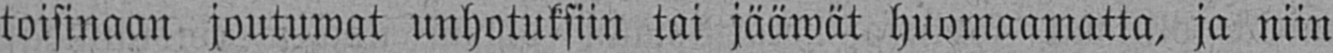toisinaan joutuwat unhotuksiin tai jääwät huomaamatta, ja niin
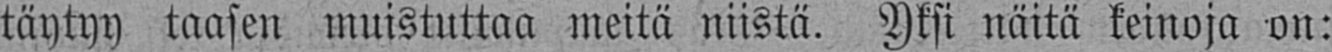täytyy taasen muistuttaa meitä niistä. Yksi näitä keinoja on:
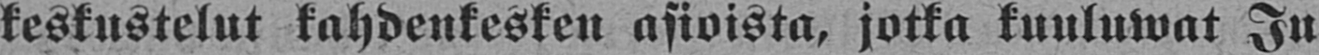keskustelut kahdenkesken asioista, jotka kuuluwat Ju-
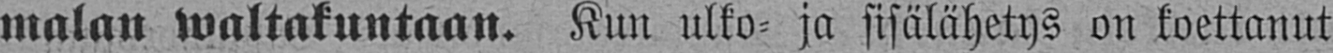malan waltakuntaan. Kun ulko- ja sisälähetys on koettanut
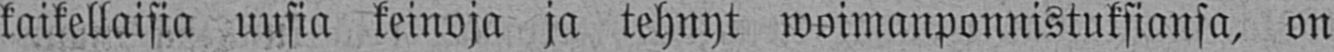kaikellaisia uusia keinoja ja tehnyt woimanponnisuksiansa, on
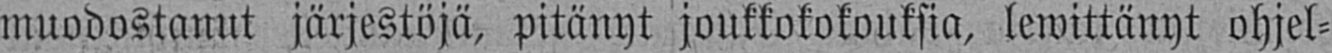muodostanut järjestöjä, pitänyt joukkokokouksia, lewittänyt ohjel-
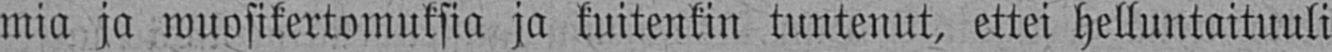mia ja wuosikertomuksia ja kuitenkin tuntenut, ettei helluntaituuli
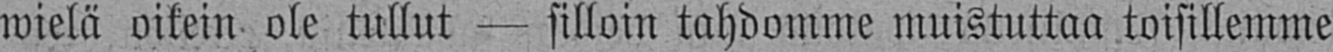wielä oikein ole tullut — silloin tahdomme muistuttaa toisillemme
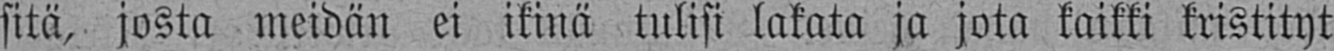sitä, josta meidän ei ikinä tulisi lakata ja jota kaikki kristityt
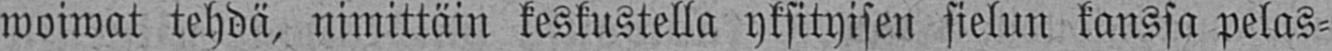woiwat tehdä, nimittäin keskustella yksityisen sielun kanssa pelas-
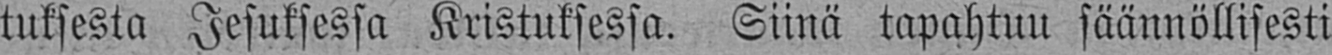tuksesta Jesuksessa Kristuksessa. Siinä tapahtuu säännöllisesti
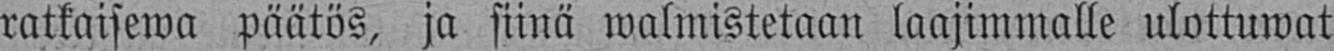ratkaisewa päätös, ja siinä walmistetaan laajimmalle ulottuwat
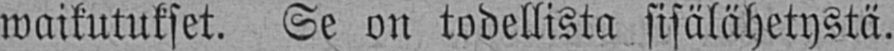waikutukset. Se on todellista sisälähetystä.
